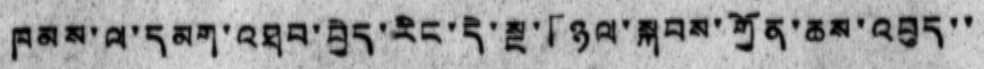ཁམས་ལ་དམག་འཐབ་བྱེད་རིང་དེ་སྔ་「ཉལ་སྐབས་གྱོན་ཆས་འབུད་་
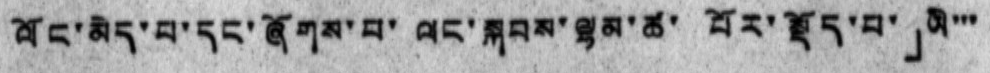ལོང་མེད་པ་དང་ཞོགས་པ་ ལང་སྐབས་ལྷམ་ཚ་ པོར་སྡོད་པ་」ཡི་་་
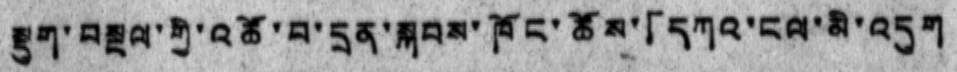སྡུག་བསྔལ་གྱི་འཚོ་བ་དྲན་སྐབས་ཁོང་ཚོས་「དཀའ་ངལ་མི་འདུག
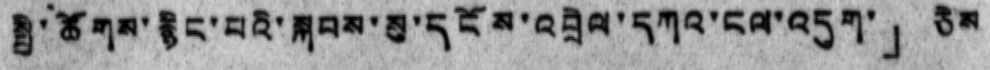སྤྱི་ཚོགས་རྙིང་པའི་སྐབས་སུ་དངོས་འབྲེལ་དཀའ་ངལ་འདུག」ཅེས
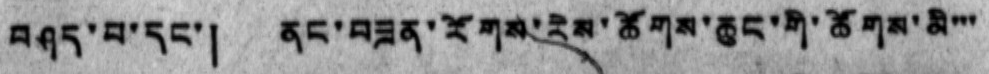བཤད་པ་དང་། ནང་བཟན་རོགས་རེས་ཚོགས་ཆུང་གི་ཚོགས་མི་་་
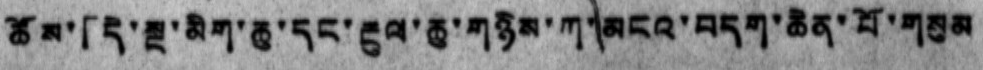ཚོས་「དེ་སྔ་མིག་ཆུ་དང་རྔུལ་ཆུ་གཉིས་ཀ་མངའ་བདག་ཆེན་པོ་གསུམ
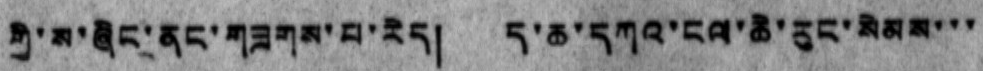གྱི་ས་ཞིང་ནང་གཟགས་པ་རེད། ད་ཆ་དཀའ་ངལ་ཆེ་རུང་སེམས་་་
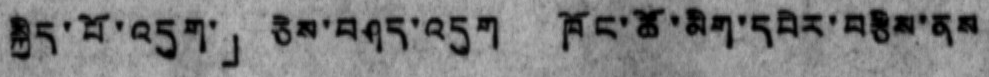སྐྱིད་པོ་འདུག་」ཅེས་བཤད་འདུག ཁོང་ཚོ་མིག་དཔེར་བརྩིས་ནས
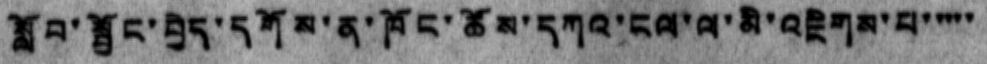སློབ་སྦྱོང་བྱེད་དགོས་ན་ཁོང་ཚོས་དཀའ་ངལ་ལ་མི་འཇིགས་པ་་་་་
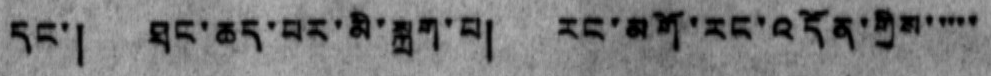དང་། ཐང་ཆད་པར་མི་སྐྲག་པ། རང་མགོ་རང་འདོན་གྱིས་་་་་
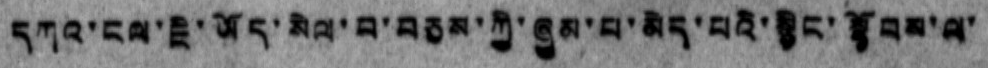དཀའ་ངལ་ཇི་ཡོད་སེལ་བ་བཅས་ཀྱི་ཞུམ་པ་མེད་པའི་སྙིང་སྟོབས་ལ་
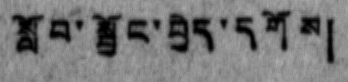སློབ་སྦྱོང་བྱེད་དགོས།
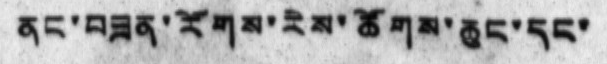ནང་བཟན་རོགས་རེས་ཚོགས་ཆུང་དང་
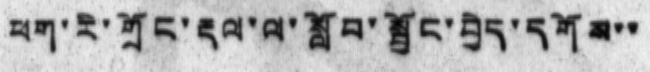ཕག་རི་གྲོང་རྡལ་ལ་སློབ་སྦྱོང་བྱེད་དགོས་་
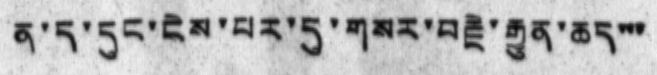ན་ད་དུང་ངེས་པར་དུ་གསར་བརྗེ་རྒྱུན་ཆད་་་
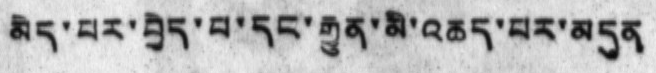མེད་པར་བྱེད་པ་དང་རྒྱུན་མི་འཆད་པར་མདུན
